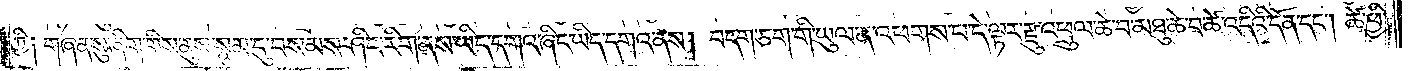ཀྱི༑ གཞན་སུ་ཞིག་གིས་ནུས་སྙམ་དུ་བསམས་ཤིང་རིག་ནས་ཡིད་དགའ་ཞིང་ཡིད་དགའ་ནས། བདག་ཅག་གི་ཡུལ་ན་འཕགས་པ་དེ་ལྟར་རྫུ་འཕྲུལ་ཆེ་བ་མཐུ་ཆེ་བ་འཚེ་འདིའི་དོན་དང༌། ཚེ་ཕྱི་
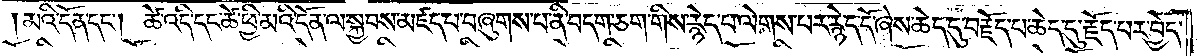མའི་དོན་དང༌། ཚེ་འདི་དང་ཚེ་ཕྱི་མའི་དོན་ལ་སྐྱབས་མཛད་པ་བཞུགས་པ་ནི་བདག་ཅག་གིས་རྙེད་པ་ལེགས་པར་རྙེད་དོ་ཞེས་ཆེད་དུ་བརྗོད་པ་ཆེད་དུ་རྗོད་པར་བྱེད་
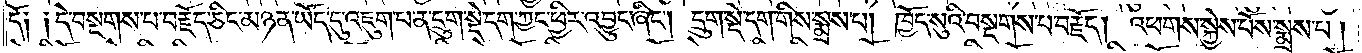དོ༑ ༑དེ་བསྔགས་པ་བརྗོད་ཅིང་མཉན་ཡོད་དུ་འཇུག་པ་ན་དྲུག་སྡེ་དག་ཀྱང་ཕྱིར་འབྱུང་ཞིང༌། དྲུག་སྡེ་དག་གིས་སྨྲས་པ། ཁྱོད་སུའི་བསྔགས་པ་བརྗོད། འཕགས་སྐྱེས་པོས་སྨྲས་པ་།
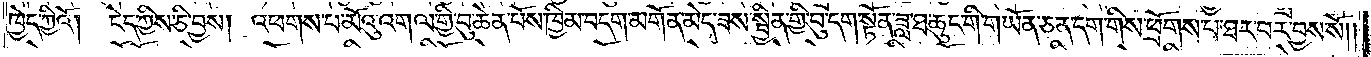ཁྱེད་ཀྱིའོ། །ངེད་ཀྱིས་ཅི་བྱས། འཕགས་པ་མོའུ་འགལ་གྱི་བུ་ཆེན་པོས་ཁྱིམ་བདག་མགོན་མེད་ཟས་སྦྱིན་གྱི་བུ་དག་སྟོན་ཟླ་ཐ་ཆུང་གི་གཡོན་ཅན་དག་གིས་ཕྲོགས་པ་ཐར་པར་བྱས་སོ༎
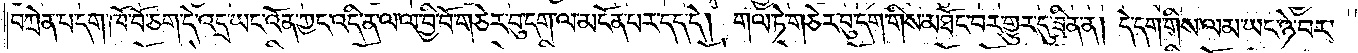བཀྲེན་པ་དག་ཁོ་བོ་ཅག་དེ་འདྲ་ཡང་འོན་ཀྱང་འདི་ན་ལ་ལ་བྱི་བོ་གཅེར་བུ་དག་ལ་མངོན་པར་དད་དེ། གལ་ཏེ་གཅེར་བུ་དག་གིས་མཐོང་བར་གྱུར་དུ་ཟིན་ན། དེ་དག་གིས་ལམ་ཡང་ཉེ་བར་
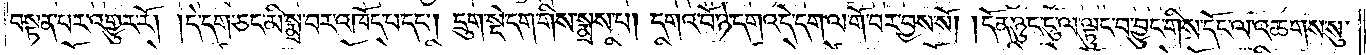བསྟན་པར་འགྱུར་རོ། །དེ་དག་ཅང་མི་སྨྲ་བར་འཁོད་པ་དང༌། དྲུག་སྡེ་དག་གིས་སྨྲས་པ། དགའ་བོ་ཉེ་དགའ་དེ་དག་ལ་གོ་བར་བྱས་སོ། །དོན་ཉུང་ངུ་ལ་ལྟུང་བ་བྱུང་གིས་དོང་ལ་འཆགས་སུ་
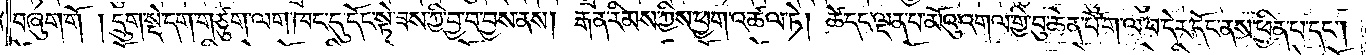བཞུག་གོ །དྲུག་སྡེ་དག་གཙུག་ལག་ཁང་དུ་དོང་སྟེ་ཟས་ཀྱི་བྱ་བ་བྱས་ནས། རྒན་རིམས་ཀྱིས་ཕྱག་འཚལ་ཏེ། ཚེ་དང་ལྡན་པ་མོའུ་འགལ་གྱི་བུ་ཆེན་པོ་ག་ལ་བ་དེར་དོང་ནས་ཕྱིན་པ་དང༌།
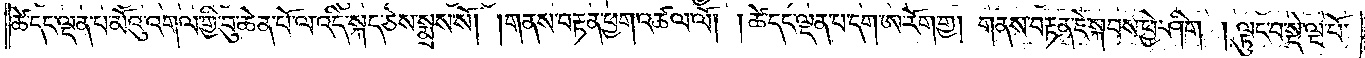ཚེ་དང་ལྡན་པ་མོའུ་འགལ་གྱི་བུ་ཆེན་པོ་ལ་འདི་སྐད་ཅེས་སྨྲས་སོ། །གནས་བརྟན་ཕྱག་འཚལ་ལོ། །ཚེ་དང་ལྡན་པ་དག་ཨ་རོག་གྱ། གནས་བརྟན་ཇེ་སྐབས་ཕྱེ་ཤིག །ལྟུང་བ་སྡེ་ལྔ་པོ་
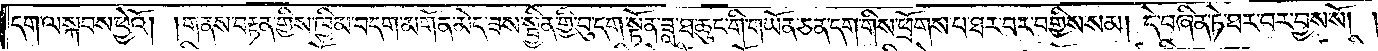དག་ལ་སྐབས་ཕྱེའོ། །གནས་བརྟན་གྱིས་ཁྱིམ་བདག་མགོན་མེད་ཟས་སྦྱིན་གྱི་བུ་དག་སྟོན་ཟླ་ཐ་ཆུང་གི་གཡོན་ཅན་དག་གིས་ཕྲོགས་པ་ཐར་བར་བགྱིས་སམ། དེ་བཞིན་ཏེ་ཐར་པར་བྱས་སོ། །
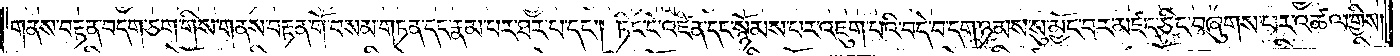གནས་བརྟན་བདག་ཅག་གིས་གནས་བརྟན་གོ་བསམ་གཏན་དང་རྣམ་པར་ཐར་པ་དང༌། ཏིང་ངེ་འཛིན་དང་སྙོམས་པར་འཇུག་པའི་བདེ་བ་དག་ཉམས་སུ་མྱོང་བར་མཛད་ཅིང་བཞུགས་པར་འཚལ་གྱིས་
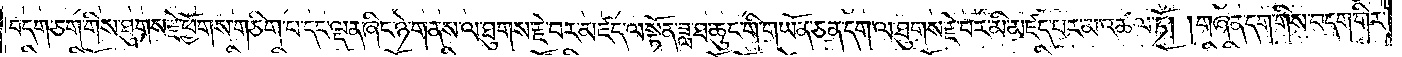བདག་ཅག་གིས་ཐུགས་རྗེ་ཕྱོགས་གཅིག་པ་དང་ལྡན་ཞིང་ཉེ་གནས་ལ་ཐུགས་རྗེ་བར་མཛད་ལ་སྟོན་ཟླ་ཐ་ཆུང་གི་གཡོན་ཅན་དག་ལ་ཐུགས་རྗེ་བར་མི་མཛད་པར་མ་འཚལ་ཏོ། །གཞན་དག་གིས་བདག་གིར་
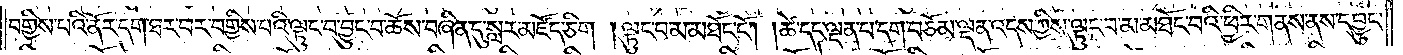བགྱིས་པའི་ནོར་དག་ཐར་པར་བགྱིས་པའི་ལྟུང་བ་བྱུང་བ་ཆོས་བཞིན་དུ་སླར་མཛོད་ཅིག །ལྟུང་བ་མ་མཐོང་ངོ༌། །ཚེ་དང་ལྡན་པ་དག་བཅོམ་ལྡན་འདས་ཀྱིས་ལྟུང་བ་མ་མཐོང་བའི་ཕྱིར་གནས་ནས་དབྱུང་
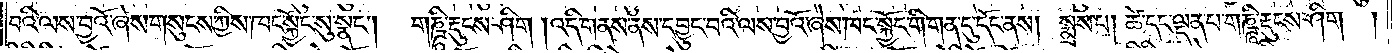བའི་ལས་བྱའོ་ཞེས་གསུངས་ཀྱིས་ཁང་སྐྱོང་སུ་སྣང༌། གཎྜཱི་རྡུངས་ཤིག །འདི་གནས་ནས་དབྱུང་བའི་ལས་བྱའོ་ཞེས་ཁང་སྐྱོང་གི་གན་དུ་དོང་ནས། སྨྲས་པ། ཚེ་དང་ལྡན་པ་གཎྜཱི་རྡུངས་ཤིག།
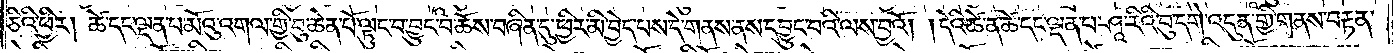ཅིའི་ཕྱིར། ཚེ་དང་ལྡན་པ་མོའུ་འགལ་གྱི་བུ་ཆེན་པོ་ལྟུང་བ་བྱུང་བ་ཆོས་བཞིན་དུ་ཕྱིར་མི་བྱེད་པས་དེ་གནས་ནས་དབྱུང་བའི་ལས་བྱའོ། །དེའི་ཚེ་ན་ཚེ་དང་ལྡན་པ་ཤཱ་རིའི་བུ་དགེ་འདུན་གྱི་གནས་བརྟན་
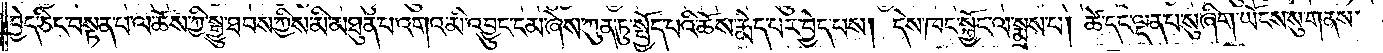བྱེད་ཅིང་བསྟན་པ་ལ་ཆོས་ཀྱི་སྒྱུ་ཐབས་ཀྱིས་མི་མཐུན་པ་འགའ་མི་འབྱུང་ངམ་ཞེས་ཀུན་ཏུ་སྤྱོད་པའི་ཆོས་རྨེད་པར་བྱེད་པས། དེས་ཁང་སྐྱོང་ལ་སྨྲས་པ། ཚེ་དང་ལྡན་པ་སུ་ཞིག་ཡོངས་སུ་གནས་
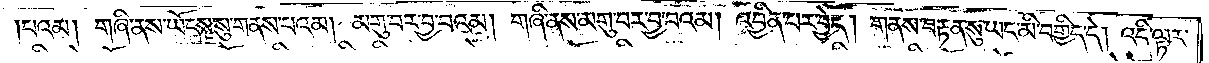།པའམ། གཞི་ནས་ཡོངས་སུ་གནས་པའམ། མགུ་བར་བྱ་བའམ། གཞི་ནས་མགུ་བར་བྱ་བའམ། འབྱིན་པར་བྱེད། གནས་བརྟན་སུ་ཡང་མི་བགྱིད་དེ། འདི་ལྟར་
